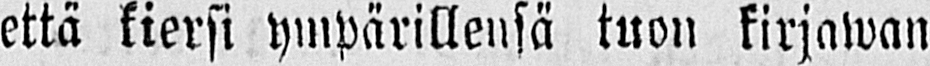että kiersi ympärillensä tuon kirjawan
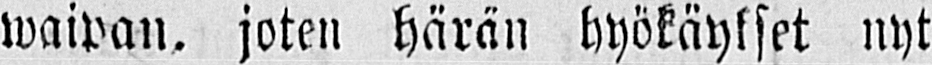waipan, joten härän hyökäykset nyt
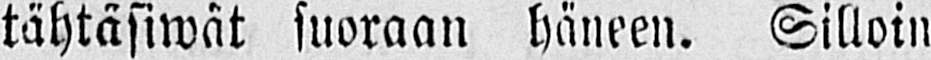tähtäwät suoraan häneen. Silloin
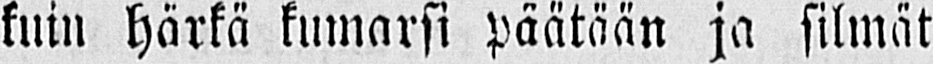kuin härkä kumarsi päätään ja silmät
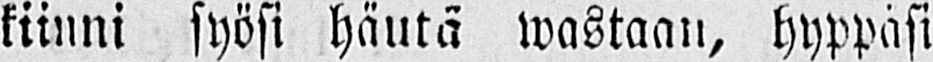kiinni syösi häntä wastaan, hyppäsi
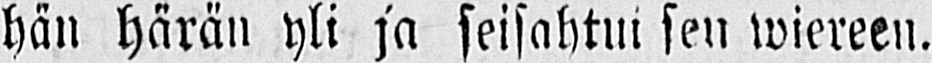hän härän yli ja seisahtui sen wiereen.
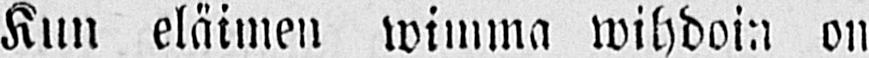Kun eläimen wimma wihdoin on
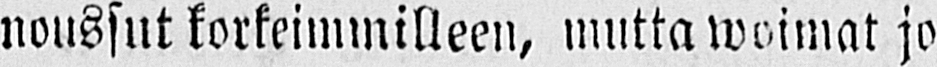noussut korkeimmilleen, mutta woimat jo
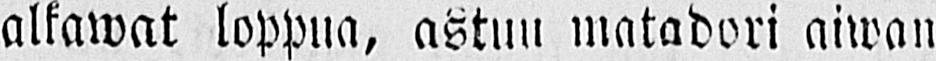alkawat loppua, astuu matadori aiwan
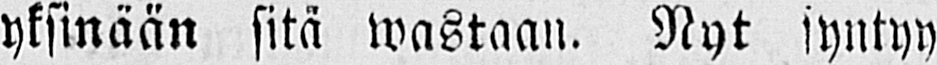yksinään sitä wastaan. Nyt syntyy
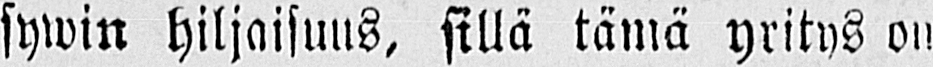sywin hiljaisuus, sillä tämä yritys on
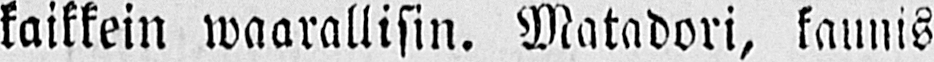kaikkein waarallisin. Matadori, kaunis
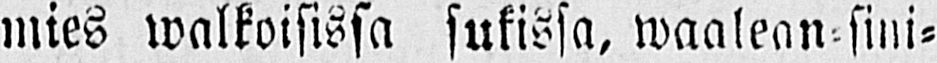mies walkoisissa sukissa, waalean-sini-
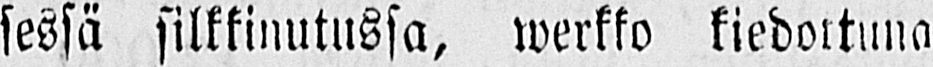sessä silkkinutussa, werkko kiedottuna
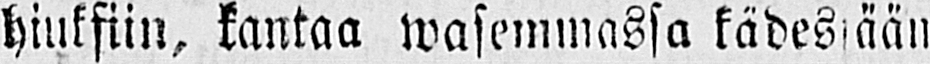hiuksiin, kantaa wasemmassa kädessään
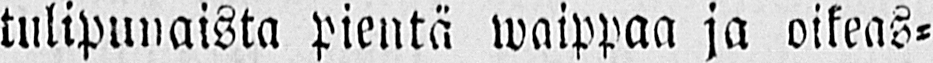tulipunaista pientä waippaa ja oikeas-
